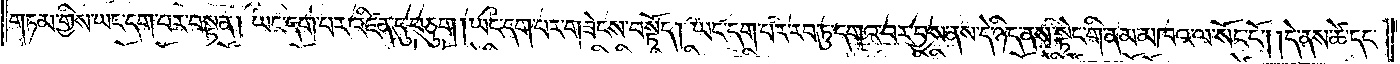གཏམ་གྱིས་ཡང་དག་པར་བསྟན། ཡང་དག་པར་འཛིན་དུ་བཅུག །ཡང་དག་པར་གཟེངས་བསྟོད། ཡང་དག་པར་རབ་ཏུ་དགའ་བར་བྱས་ནས་དེ་ཉིད་ནས་སྟེང་གི་ནམ་མཁའ་ལ་སོང་ངོ༌། །དེ་ནས་ཚེ་དང་
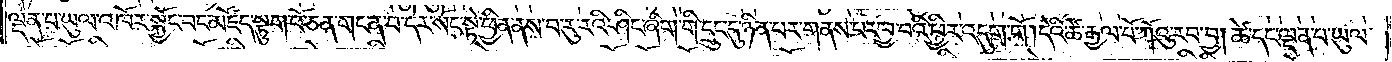ལྡན་པ་ཡུལ་འཁོར་སྐྱོང་བང་མཛོད་སྟུག་པོ་ཅན་གང་ན་བ་དེར་སོང་སྟེ་ཕྱིན་ནས་བ་རུ་རའི་ཤིང་ཞིག་གི་དྲུང་དུ་ཉིན་པར་གནས་པར་བྱ་བའི་ཕྱིར་འདུག་གོ །དེའི་ཚེ་རྒྱལ་པོ་ཀོའུ་རབ་བྱ། ཚེ་དང་ལྡན་པ་ཡུལ་
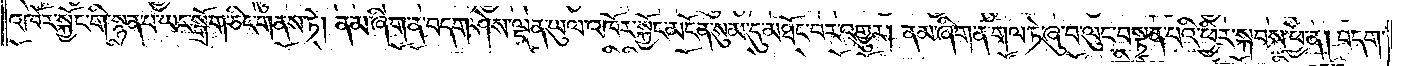འཁོར་སྐྱོང་གི་སྙན་པ་ཡང་སྒྲོག་ཅིང་གནས་ཏེ། ནམ་ཞིག་ན་བདག་ཤེས་ལྡན་ཡུལ་འཁོར་སྐྱོང་མངོན་སུམ་དུ་མཐོང་བར་འགྱུར། ནམ་ཞིག་ན་གལ་ཏེ་ཞུ་བ་ལུང་བསྟན་པའི་ཕྱིར་སྐབས་ཕྱེ་ན། བདག་
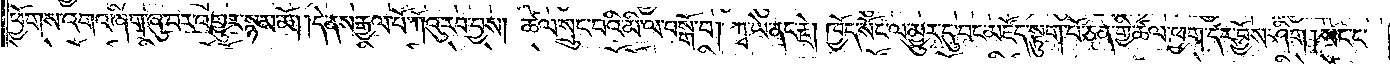ཕྱོགས་འགའ་ཞིག་ཞུ་བར་འགྱུར་སྙམ་མོ། །དེ་ནས་རྒྱལ་པོ་ཀོའུ་རབ་བྱས། ཚལ་སྲུང་བའི་མི་ལ་བསྒོ་བ། ཀྭ་ཡེ་ནང་རྗེ། ཁྱོད་སོང་ལ་མྱུར་དུ་བང་མཛོད་སྟུག་པོ་ཅན་གྱི་ཚལ་ཕྱག་དར་བྱོས་ཤིག །སང་ང་
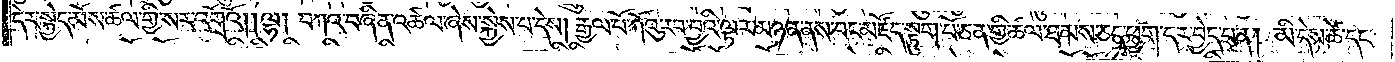དེར་སྐྱེད་མོས་ཚལ་གྱི་སར་འགྲོའོ། །ལྷ། བཀའ་བཞིན་འཚལ་ཞེས་སྐྱེས་པ་དེས། རྒྱལ་པོ་ཀོའུ་རབ་བྱའི་ལྟར་མཉན་ནས་བང་མཛོད་སྟུག་པོ་ཅན་གྱི་ཚལ་ཐམས་ཅད་ཕྱག་དར་བྱེད་པ་ན། མི་དེས་ཚེ་དང་
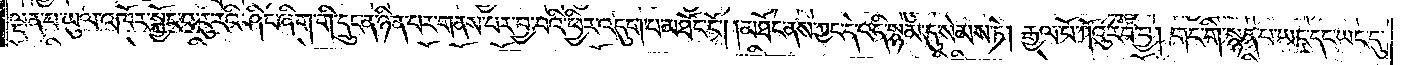ལྡན་པ་ཡུལ་འཁོར་སྐྱོང་བ་རུ་རའི་ཤིང་ཞིག་གི་དྲུང་ན་ཉིན་པར་གནས་པར་བྱ་བའི་ཕྱིར་འདུག་པ་མཐོང་ངོ༌། །མཐོང་ནས་ཀྱང་དེ་འདི་སྙམ་དུ་སེམས་ཏེ། རྒྱལ་པོ་ཀོའུ་རབ་བྱ། གང་གི་སྙམ་པ་ཡང་དང་ཡང་དུ་
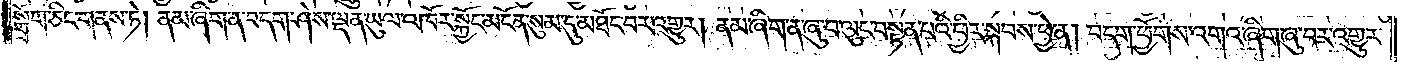སྒྲོག་ཅིང་གནས་ཏེ། ནམ་ཞིག་ན་བདག་ཤེས་ལྡན་ཡུལ་འཁོར་སྐྱོང་མངོན་སུམ་དུ་མཐོང་བར་འགྱུར། ནམ་ཞིག་ན་ཞུ་བ་ལུང་བསྟན་པའི་ཕྱིར་སྐབས་ཕྱེ་ན། བདག་ཕྱོགས་འགའ་ཞིག་ཞུ་བར་འགྱུར་
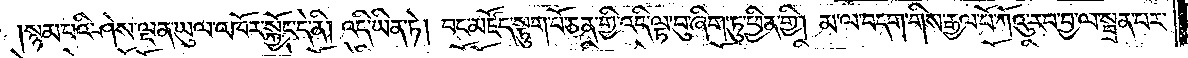སྙམ་པའི་ཤེས་ལྡན་ཡུལ་འཁོར་སྐྱོང་དེ་ནི། འདི་ཡིན་ཏེ། བང་མཛོད་སྟུག་པོ་ཅན་གྱི་འདི་ལྟ་བུ་ཞིག་ཏུ་ཕྱིན་གྱི། མ་ལ་བདག་གིས་རྒྱལ་པོ་ཀོའུ་རབ་བྱ་ལ་སྦྲན་པར
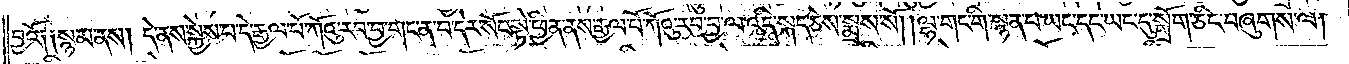བྱའོ། །སྙམ་ནས། དེ་ནས་སྐྱེས་པ་དེ་རྒྱལ་པོ་ཀོའུ་རབ་བྱ་གང་ན་བ་དེར་སོང་སྟེ་ཕྱིན་ནས་རྒྱལ་པོ་ཀོའུ་རབ་བྱ་ལ་འདི་སྐད་ཅེས་སྨྲས་སོ། །ལྷ་གང་གི་སྙན་པ་ཡང་དང་ཡང་དུ་སྒྲོག་ཅིང་བཞུགས་ལ།
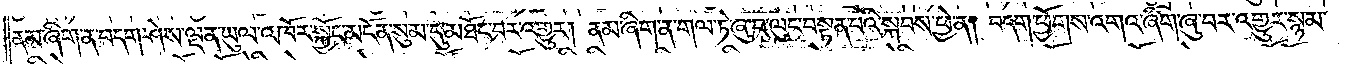ནམ་ཞིག་ན་བདག་ཤེས་ལྡན་ཡུལ་འཁོར་སྐྱོང་མངོན་སུམ་དུ་མཐོང་བར་འགྱུར། ནམ་ཞིག་ན་གལ་ཏེ་ཞུ་བ་ལུང་བསྟན་པའི་སྐབས་ཕྱེ་ན། བདག་ཕྱོགས་འགའ་ཞིག་ཞུ་བར་འགྱུར་སྙམ་
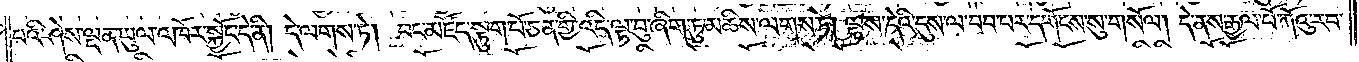པའི་ཤེས་ལྡན་ཡུལ་འཁོར་སྐྱོང་དེ་ནི། དེ་ལགས་ཏེ། བང་མཛོད་སྟུག་པོ་ཅན་གྱི་འདི་ལྟ་བུ་ཞིག་ཏུ་མཆིས་ལགས་ཏེ། ལྷས་དེའི་དུས་ལ་བབ་པར་དགོངས་སུ་གསོལ། དེ་ནས་རྒྱལ་པོ་ཀོའུ་རབ་
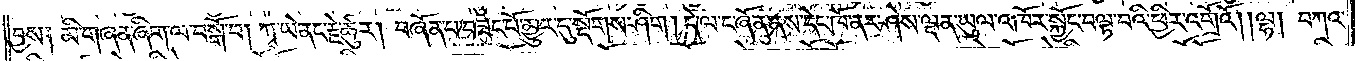བྱས། མི་གཞན་ཞིག་ལ་བསྒོ་བ། ཀྭ་ཡེ་ནང་རྗེ་ཚུར། བཞོན་པ་བཟང་པོ་མྱུར་དུ་སྡོགས་ཤིག །དེ་ལ་ང་ཞོན་ནས་དེང་ཁོ་ནར་ཤེས་ལྡན་ཡུལ་འཁོར་སྐྱོང་བལྟ་བའི་ཕྱིར་འགྲོའོ། །ལྷ། བཀའ་
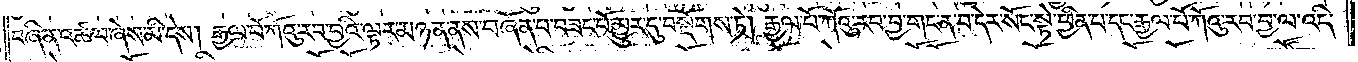བཞིན་འཚལ་ཞེས་མི་དེས། རྒྱལ་པོ་ཀོའུ་རབ་བྱའི་ལྟར་མཉན་ནས་བཞོན་པ་བཟང་པོ་མྱུར་དུ་བསྡོགས་ཏེ། རྒྱལ་པོ་ཀོའུ་རབ་བྱ་གང་ན་བ་དེར་སོང་སྟེ་ཕྱིན་པ་དང་རྒྱལ་པོ་ཀོའུ་རབ་བྱ་ལ་འདི་
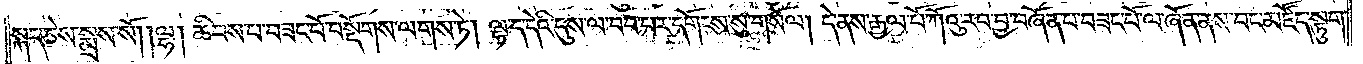སྐད་ཅེས་སྨྲས་སོ། །ལྷ། ཆིབས་པ་བཟང་པོ་བསྡོགས་ལགས་ཏེ། ལྷ་ད་དེའི་དུས་ལ་བབ་པར་དགོངས་སུ་གསོལ། དེ་ནས་རྒྱལ་པོ་ཀོའུ་རབ་བྱ་བཞོན་པ་བཟང་པོ་ལ་ཞོན་ནས་བང་མཛོད་སྟུག་
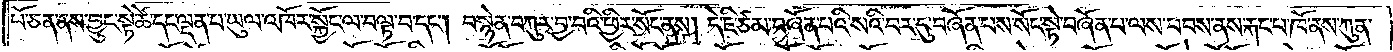པོ་ཅན་ནས་བྱུང་སྟེ་ཚེ་དང་ལྡན་པ་ཡུལ་འཁོར་སྐྱོང་ལ་བལྟ་བ་དང༌། བསྙེན་བཀུར་བྱ་བའི་ཕྱིར་སོང་ནས། དེ་ཇི་ཙམ་བཞོན་པའི་སའི་བར་དུ་བཞོན་པས་སོང་སྟེ་བཞོན་པ་ལས་བབས་ནས་རྐང་པ་ཁོ་ནས་ཀུན་
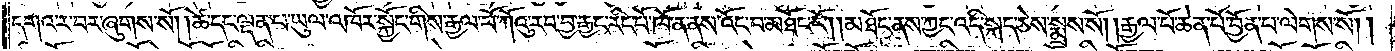དགའ་ར་བར་ཞུགས་སོ། །ཚེ་དང་ལྡན་པ་ཡུལ་འཁོར་སྐྱོང་གིས་རྒྱལ་པོ་ཀོའུ་རབ་བྱ་རྒྱང་རིང་པོ་ཁོ་ན་ནས་འོང་བ་མཐོང་ངོ༌། །མཐོང་ནས་ཀྱང་འདི་སྐད་ཅེས་སྨྲས་སོ། །རྒྱལ་པོ་ཆེན་པོ་བྱོན་པ་ལེགས་སོ། །
